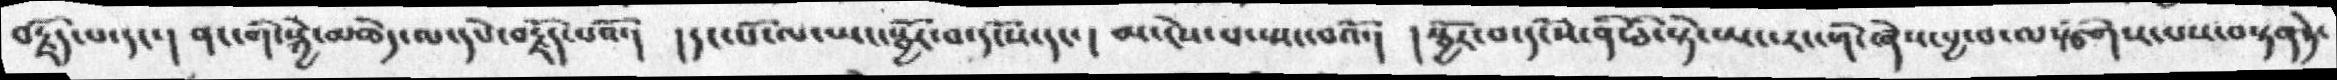བརྗོད་པ་དང་།  ནང་གི་སྐྱེ་མཆེད་ལ་དཔེ་བརྗོད་པའོ་།  །དང་པོ་ལ་ཡང་སྦྱོར་བ་དངོས་དང་།   མ་ངེས་པ་སྤང་བའོ་། །སྦྱོར་བ་དངོས་ནི་ཅེ་སྟེ་ཡང་རང་གི་ཞེས་བྱ་བ་ལསྩོགས་པས་བསྟན་ཏེ་
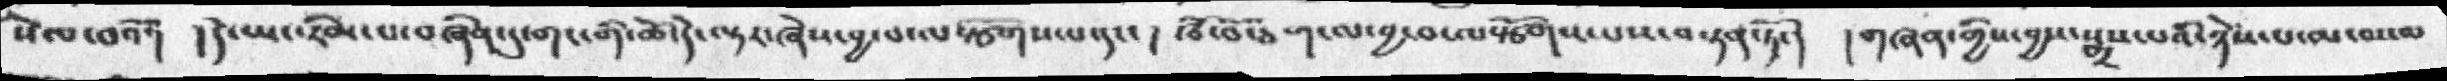སེལ་བའོ་།  །དེ་ཡང་རིམ་པ་བཞིན་དུ་གང་གི་ཚེ་དེ་ལྟར་ཞེས་བྱ་བ་ལསྩོགས་པ་དང་། ཁོ་བོ་ཅག་ལ་བྱ་བ་ལསྩོགས་པས་བསྟན་ཏོ་།  །གཞན་གྱིས་བྱས་སྨྲས་པའི་ཉེས་པ་མ་བསལ་
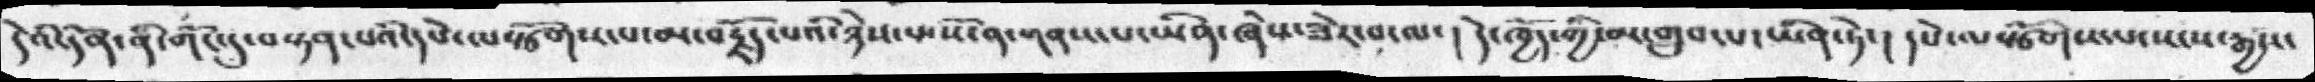དེའི་དོན་ནི་གོང་དུ་བསྟན་པའི་དཔེ་ལསྩོགས་པ་མ་བརྗོད་པའི་ཉེས་པ་སོ་ན་གནས་པ་ཡིན་ཞེས་ཟེར་བ་ལ་།  དེ་ཁྱོད་གྱི་མ་གྲུབ་པ་ཡིན་ཏེ་།  དཔེ་ལསྩོགས་པ་སངས་རྒྱས་
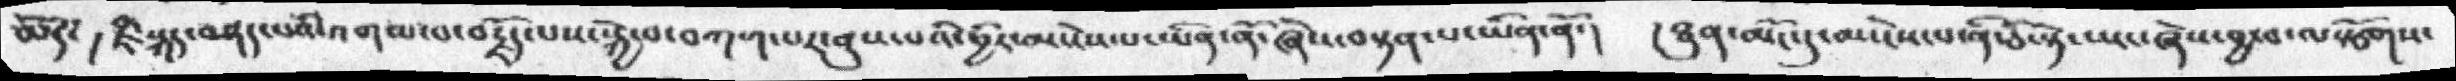མོད་། ཇི་སྐད་བཤད་པའི་འགལ་བ་བརྗོད་པས་སྐྱེ་བ་བཀག་པར་ནུས་པའི་བྱིར་མ་ངེས་པ་ཡིན་ནོ་ཞེས་བསྟན་པ་ཡིན་ནོ་།  །ཐུན་མོང་དུ་མ་ངེས་པ་ནི་ཅི་སྟེ་ཡང་ཞེས་བྱ་བ་ལསྩོགས་
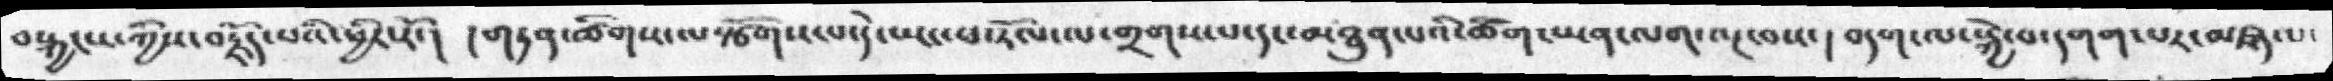བསྐྱངས་ཀྱིས་བརྗོད་པའི་ཕྱིར་རོ་།  །གཏན་ཚིགས་ལསྩོགས་པ་དེ་ཡང་ཕ་རོལ་ལ་གྲགས་པ་དང་མཐུན་པའི་ཚིག་ཡན་ལག་ལྔ་བས་། བདག་ལ་སྐྱེ་བ་དགག་པར་མཛད་པ་
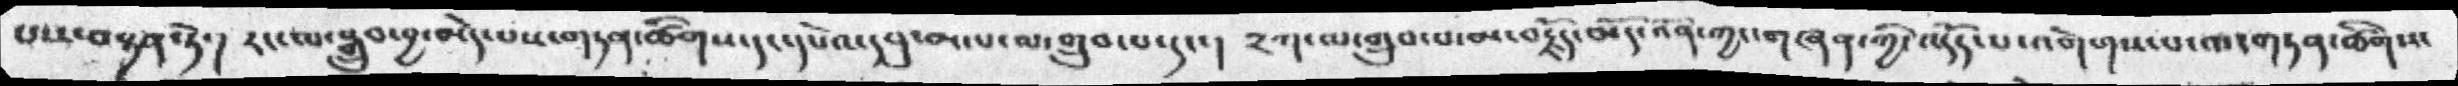པས་བསྟན་ཏེ་།  རང་ལ་སྒྲུབ་བྱ་མེད་པས་གཏན་ཚིགས་དང་དཔེའ་དབུ་མ་པ་མ་གྲུབ་པ་དང་།  ༢ཀ་མ་གྲུབ་པ་མ་བརྗོད་མོད་འོན་གྱང་གཞན་ཀྱི་འདོད་པ་འགོགས་པ་ལ་གཏན་ཚིགས་
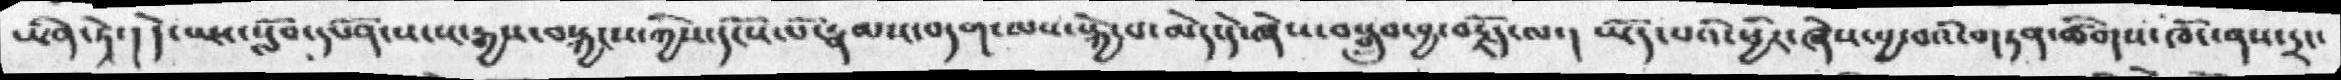ཡིན་ཏེ་།  དེ་ཡང་སློབ་དཔོན་སངས་རྒྱས་བསྐྱངས་ཀྱིས་དངོས་པོ་རྣམས་བདག་ལས་སྐྱེ་བ་མེད་དེ་ཞེས་བསྒྲུབ་བྱ་བརྗོད་ལ་།  ཡོད་པའི་ཕྱིར་ཞེས་བྱ་བའི་གཏན་ཚིགས་ཁོང་ནས་དྲང་
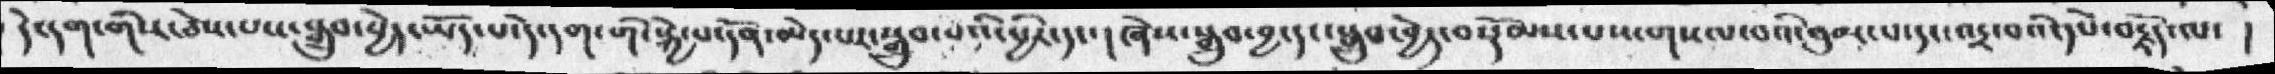དེ་དག་གིས་ཅེས་པས་སྒྲུབ་བྱེད་ཡོད་པ་དེ་དག་གི་སྐྱེ་པ་དོན་མེད་པར་སྒྲུབ་པའི་ཕྱིར་དང་།  ཞེས་སྒྲུབ་བྱ་དང་སྒྲུབ་བྱེད་བསྡོམས་པས་གསལ་བའི་བུམ་པ་དང་འདྲ་བའི་དཔེ་བརྗོད་ལ་ །
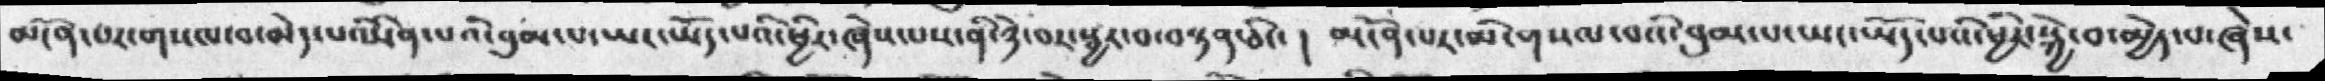མངོན་པར་གསལ་བ་མེད་པའི་ཡིན་པའི་བུམ་པ་ཡང་ཡོད་པའི་ཕྱིར་ཞེས་པས་ནི་ཉེ་བར་སྦྱར་བ་བསྟན་ཅིང་ ། མངོན་པར་མི་གསལ་བའི་བུམ་པ་ཡང་ཡོད་པའི་ཕྱིར་སྐྱེ་བ་མྱེད་པ་ཞེས་
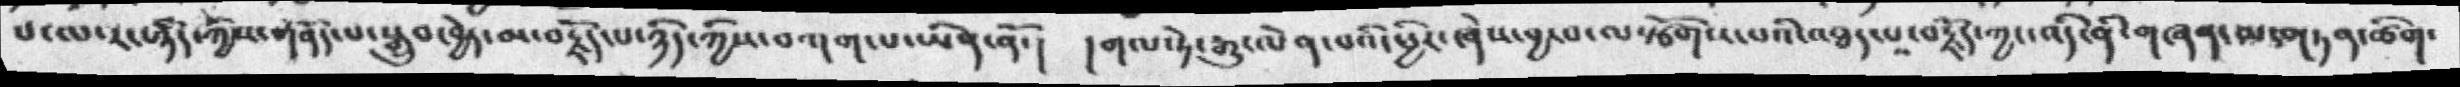པ་ལ་རང་ཉིད་ཀྱིས་གནོད་པ་སྒྲུབ་བྱེད་མ་བརྗོད་པ་ཉིད་ཀྱིས་བཀག་པ་ཡིན་ནོ་། །གལ་ཏེ་རྒྱུ་ལེན་པའི་ཕྱིར་ཞེས་བྱ་བ་ལསྩོགས་པའི་འཐད་པ་བརྗོད་ཀྱང་འདི་ནི་གཞན་ལ་གཏན་ཚིག་
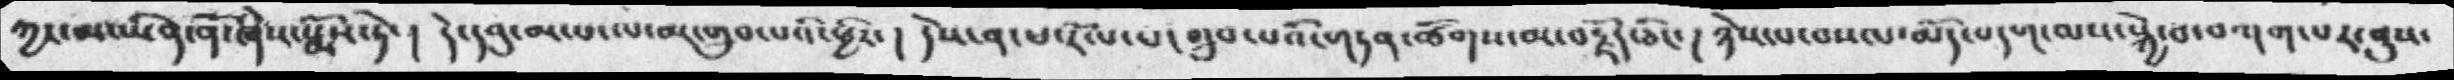ཀྱང་མ་ཡིན་ནོ་ཞེས་སྨོས་ཏེ་།  དེ་དབུ་མ་པ་ལ་མ་གྲུབ་པའི་ཕྱིར་། དེས་ན་ཕ་རོལ་པ་གྲུབ་པའི་གཏན་ཚོགས་མ་བརྗོད་ཅིང་། ཉེས་པ་བསལ་མོད་བདག་ལས་སྐྱེ་བ་བཀག་པར་་ནུས་
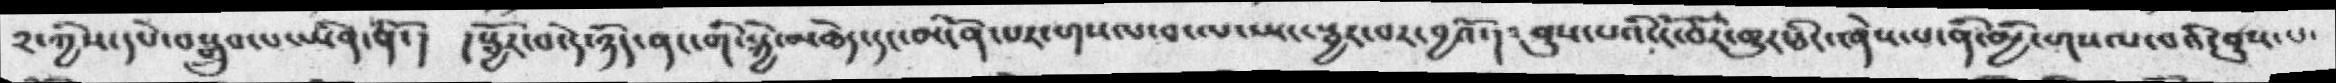༢་ཀྱིས་དཔེ་བསྒྲུབ་པ་ཡིན་ནོ་།  །སྦྱོར་བ་དེ་ཉིད་ནང་གི་སྐྱེ་མཆེད་དང་མངོན་པར་གསལ་བ་ལ་ཡང་སྦྱར་བར་བྱའོ་། ནུས་པའི་ངོ་བོར་གྱུར་ཅིང་ཤེས་པ་ནི་མྱི་གསལ་བའི་ནུས་པ་
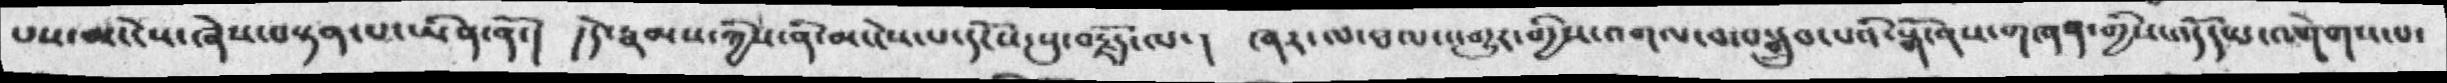པས་མ་ངེས་ཞེས་བསྟན་པ་ཡིན་ནོ་།  །དེ་རྣམས་ཀྱིས་ནི་མ་ངེས་པ་དངོས་སུ་བརྗོད་ལ་།  ཞར་ལ་ཐལ་འགྱུར་གྱིས་འགལ་བ་བསྒྲུབ་པའི་སྒོ་ནས་གཞན་གྱིས་འདོད་པ་འགེགས་པ་
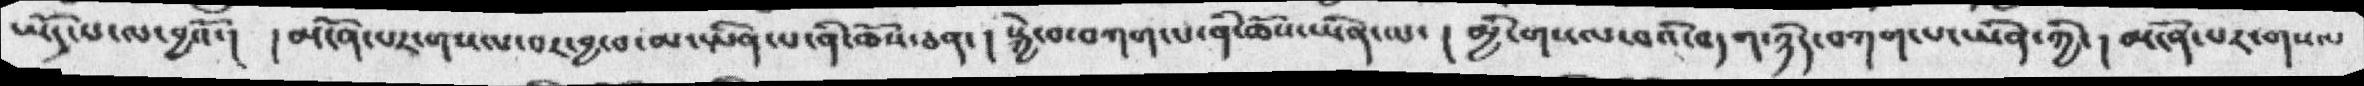ཡོད་པ་ལ་བྱའོ་།  ། མངོན་པར་གསལ་པར་བྱ་བ་མ་ཡིན་པ་ནི་ཆོས་ཅན་། སྐྱེ་བ་བཀག་པ་ནི་ཆོས་ཡིན་ལ་།  མྱི་གསལ་བའི་བདག་ཉིད་བཀག་པ་ཡིན་ཀྱི་།  མངོན་པར་གསལ
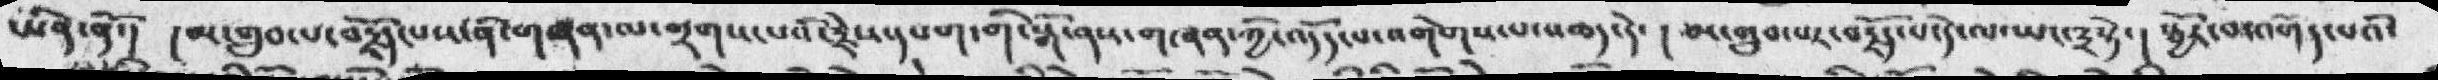ཡིན་ནོ་། ། མ་གྲུབ་པ་བརྗོད་པས་ནི་གཞན་ལ་གྲགས་པའི་རྗེས་དཔག་གི་སྒོ་ནས་གཞན་ཀྱི་འདོད་པ་འགེགས་པ་འཆད་དེ་།  མ་གྲུབ་པར་བརྗོད་པ་དེ་ལ་ཡང་༣སྟེ་།  སྦྱོར་བ་འགོད་འི་
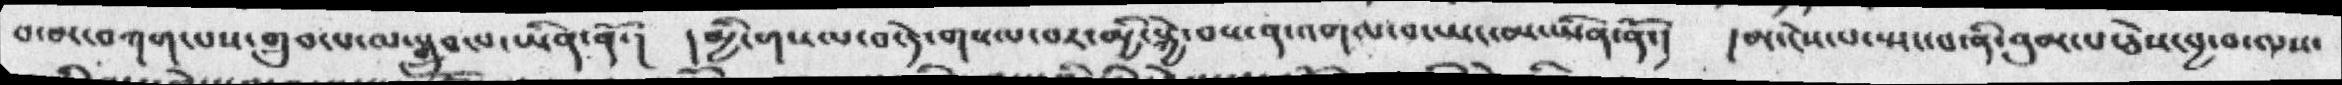བ་མ་བཀག་པས་གྲུབ་པ་ལ་སྒྲུབ་པ་ཡིན་ནོ་།  །མྱི་གསལ་བ་དེ་གསལ་བར་མྱི་སྐྱེ་བས་ན་འགལ་བ་ཡང་མ་ཡིན་ནོ་།  ། མ་ངེས་པ་སྤང་པ་ནི་བུམ་པ་ཅེས་བྱ་བ་ལས་
